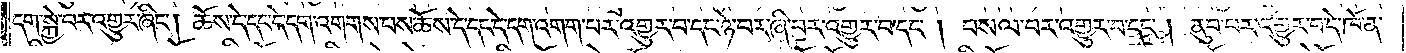དག་སྐྱེ་བར་འགྱུར་ཞིང༌། ཆོས་དེ་དང་དེ་དག་འགགས་པས་ཆོས་དེ་དང་དེ་དག་འགག་པར་འགྱུར་བ་དང་ཉེ་བར་ཞི་བར་འགྱུར་བ་དང༌། བསལ་བར་འགྱུར་བ་དང༌། ནུབ་པར་འགྱུར་བ་དེ་ཁོ་ན་
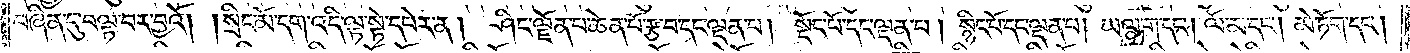བཞིན་དུ་བལྟ་བར་བྱའོ། །སྲིང་མོ་དག་འདི་ལྟ་སྟེ་དཔེར་ན། ཤིང་ལྗོན་པ་ཆེན་པོ་རྩ་བ་དང་ལྡན་པ། སྡོང་པོ་དང་ལྡན་པ། སྙིང་པོ་དང་ལྡན་པ། ཡལ་ག་དང༌། ལོ་མ་དང༌། མེ་ཏོག་དང༌།
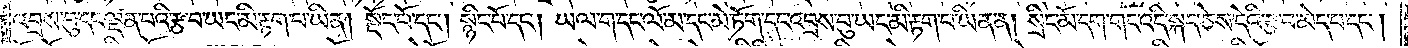འབྲས་བུ་དང་ལྡན་པའི་རྩ་བ་ཡང་མི་རྟག་པ་ཡིན། སྡོང་པོ་དང༌། སྙིང་པོ་དང༌། ཡལ་ག་དང་ལོ་མ་དང་མེ་ཏོག་དང་འབྲས་བུ་ཡང་མི་རྟག་པ་ཡིན་ན། སྲིང་མོ་དག་གང་འདི་སྐད་ཅེས་དེའི་རྩ་བ་མེད་པ་དང༌།
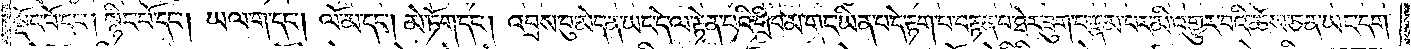སྡོང་པོ་དང༌། སྙིང་པོ་དང༌། ཡལ་ག་དང༌། ལོ་མ་དང༌། མེ་ཏོག་དང༌། འབྲས་བུ་མེད་ན་ཡང་དེ་ལ་རྟེན་པའི་གྲིབ་མ་གང་ཡིན་པ་དེ་རྟག་པ་བརྟན་པ་ཐེར་ཟུག་པ་རྣམ་པར་མི་འགྱུར་བའི་ཆོས་ཅན་ཡང་དག་
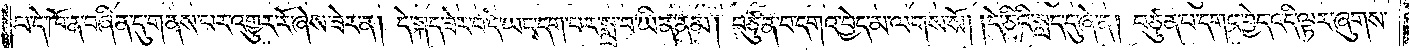པ་དེ་ཁོ་ན་བཞིན་དུ་གནས་པར་འགྱུར་རོ་ཞེས་ཟེར་ན། དེ་སྐད་ཟེར་བ་དེ་ཡང་དག་པར་སྨྲ་བ་ཡིན་ནམ། བཙུན་པ་དགའ་བྱེད་མ་ལགས་སོ། །དེ་ཅིའི་སླད་དུ་ཞེ་ན། བཙུན་པ་དགའ་བྱེད་འདི་ལྟར་ཞུགས་
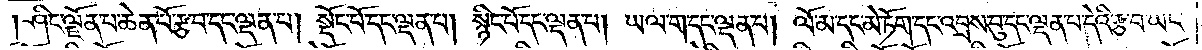ཤིང་ལྗོན་པ་ཆེན་པོ་རྩ་བ་དང་ལྡན་པ། སྡོང་པོ་དང་ལྡན་པ། སྙིང་པོ་དང་ལྡན་པ། ཡལ་ག་དང་ལྡན་པ། ལོ་མ་དང་མེ་ཏོག་དང་འབྲས་བུ་དང་ལྡན་པ་དེའི་རྩ་བ་ཡང་
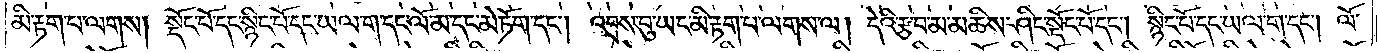མི་རྟག་པ་ལགས། སྡོང་པོ་དང་སྙིང་པོ་དང་ཡལ་ག་དང་ལོ་མ་དང་མེ་ཏོག་དང༌། འབྲས་བུ་ཡང་མི་རྟག་པ་ལགས་ལ། དེའི་རྩ་བ་མ་མཆིས་ཤིང་སྡོང་པོ་དང༌། སྙིང་པོ་དང་ཡལ་ག་དང༌། ལོ་
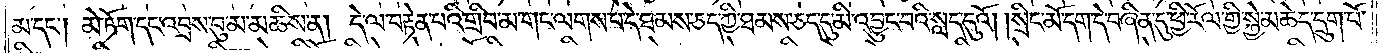མ་དང༌། མེ་ཏོག་དང་འབྲས་བུ་མ་མཆིས་ན། དེ་ལ་བརྟེན་པའི་གྲིབ་མ་གང་ལགས་པ་དེ་ཐམས་ཅད་ཀྱི་ཐམས་ཅད་དུ་མི་འབྱུང་བའི་སླད་དུའོ། །སྲིང་མོ་དག་དེ་བཞིན་དུ་ཕྱི་རོལ་གྱི་སྐྱེ་མཆེད་དྲུག་པོ་
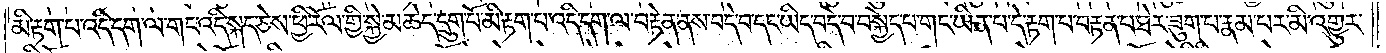མི་རྟག་པ་འདི་དག་ལ་གང་འདི་སྐད་ཅེས་ཕྱི་རོལ་གྱི་སྐྱེ་མཆེད་དྲུག་པོ་མི་རྟག་པ་འདི་དག་ལ་བརྟེན་ནས་བདེ་བ་དང་ཡིད་བདེ་བ་བསྐྱེད་པ་གང་ཡིན་པ་དེ་རྟག་པ་བརྟན་པ་ཐེར་ཟུག་པ་རྣམ་པར་མི་འགྱུར་
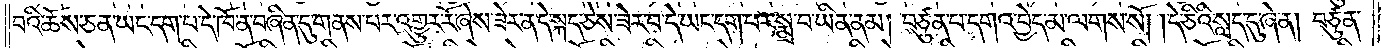བའི་ཆོས་ཅན་ཡང་དག་པ་དེ་ཁོ་ན་བཞིན་དུ་གནས་པར་འགྱུར་རོ་ཞེས་ཟེར་ན་དེ་སྐད་ཅེས་ཟེར་བ་དེ་ཡང་དག་པར་སྨྲ་བ་ཡིན་ནམ། བཙུན་པ་དགའ་བྱེད་མ་ལགས་སོ། །དེ་ཅིའི་སླད་དུ་ཞེ་ན། བཙུན་
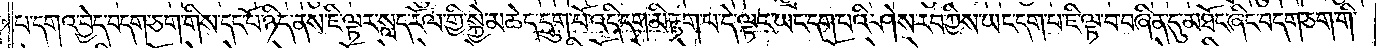པ་དགའ་བྱེད་བདག་ཅག་གིས་དང་པོ་ཉིད་ནས་ཇི་ལྟར་སླད་རོལ་གྱི་སྐྱེ་མཆེད་དྲུག་པོ་འདི་དག་མི་རྟག་པ་དེ་ལྟར་ཡང་དག་པའི་ཤེས་རབ་ཀྱིས་ཡང་དག་པ་ཇི་ལྟ་བ་བཞིན་དུ་མཐོང་ཞིང་བདག་ཅག་གི་
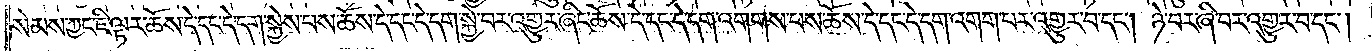སེམས་ཀྱང་ཇི་ལྟར་ཆོས་དེ་དང་དེ་དག་སྐྱེས་པས་ཆོས་དེ་དང་དེ་དག་སྐྱེ་བར་འགྱུར་ཞིང་ཆོས་དེ་དང་དེ་དག་འགགས་པས་ཆོས་དེ་དང་དེ་དག་འགག་པར་འགྱུར་བ་དང༌། ཉེ་བར་ཞི་བར་འགྱུར་བ་དང༌།
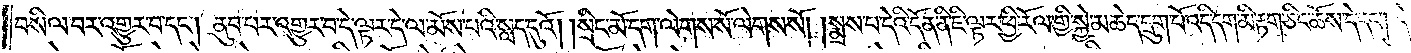བསིལ་བར་འགྱུར་བ་དང༌། ནུབ་པར་འགྱུར་བ་དེ་ལྟར་དེ་ལ་མོས་པའི་སླད་དུའོ། །སྲིང་མོ་དག་ལེགས་སོ་ལེགས་སོ། །སྨྲས་པ་དེའི་དོན་ནི་ཇི་ལྟར་ཕྱི་རོལ་གྱི་སྐྱེ་མཆེད་དྲུག་པོ་འདི་དག་མི་རྟག་ཅིང་ཆོས་དེ་དང༌། དེ་
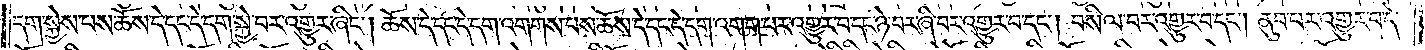དག་སྐྱེས་པས་ཆོས་དེ་དང་དེ་དག་སྐྱེ་བར་འགྱུར་ཞིང༌། ཆོས་དེ་དང་དེ་དག་འགགས་པས་ཆོས་དེ་དང་དེ་དག་འགག་པར་འགྱུར་བ་དང་ཉེ་བར་ཞི་བར་འགྱུར་བ་དང༌། བསིལ་བར་འགྱུར་བ་དང༌། ནུབ་པར་འགྱུར་བ་དེ་
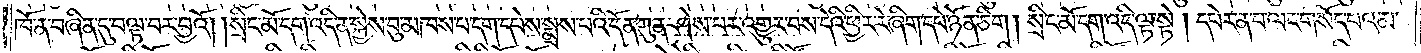ཁོ་ན་བཞིན་དུ་བལྟ་བར་བྱའོ། །སྲིང་མོ་དག་འདི་ན་སྐྱེས་བུ་མཁས་པ་དག་དཔེས་སྨྲས་པའི་དོན་ཀུན་ཤེས་པར་འགྱུར་བས་དེའི་ཕྱིར་རེ་ཞིག་དཔེ་ཉོན་ཅིག། སྲིང་མོ་དག་འདི་ལྟ་སྟེ། དཔེར་ན་བ་ལང་གསོད་པའམ་
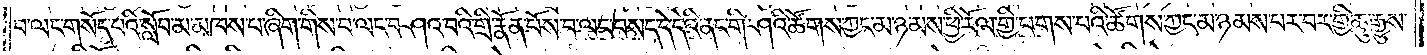བ་ལང་གསོད་པའི་སློབ་མ་མཁས་པ་ཞིག་གིས་བ་ལང་བཤའ་བའི་གྲི་རྣོན་པོས་བ་ལང་བསད་དེ་དེའི་ནང་གི་ཤའི་ཚོགས་ཀྱང་མ་ཉམས་ཕྱི་རོལ་གྱི་པགས་པའི་ཚོགས་ཀྱང་མ་ཉམས་པར་བར་གྱི་ཆུ་རྒྱུས་
